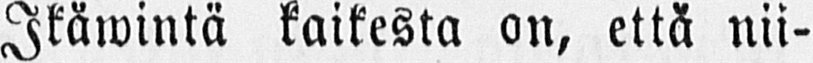Ikäwintä kaikesta on, että nii-
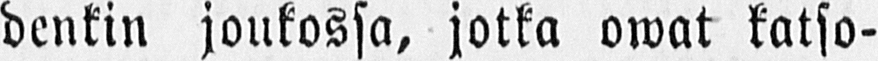denkin joukossa, jotka owat katso-
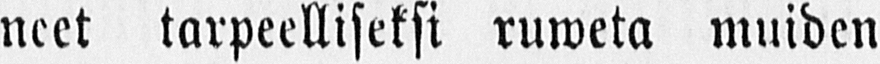neet tarpeelliseksi ruweta muiden
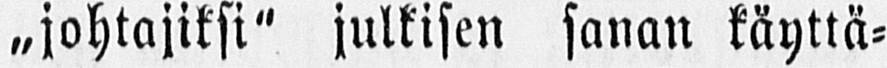˶johtajiksi" julkisen sanan käyttä-
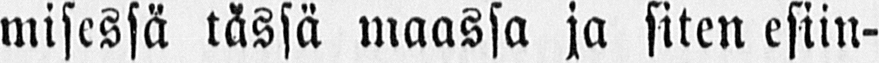misessä tässä maassa ja siten esiin-
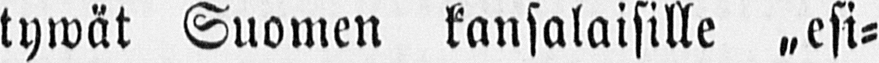tywät Suomen kansalaisille „esi-
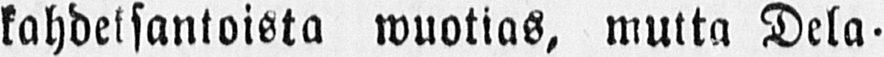kahdeksantoista wuotias, mutta Dela-
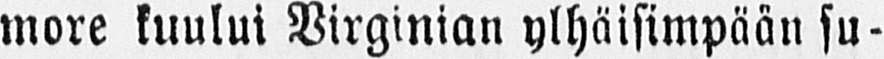more kuului Virginian ylhäisimpään su-
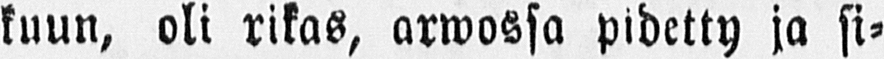kuun, oli rikas, arwossa pidetty ja si-
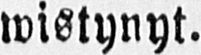wistynyt.
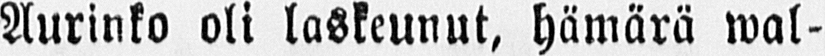Aurinko oli laskeunut, hämärä wal-
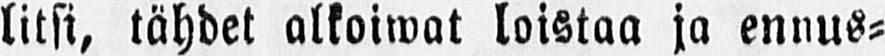litsi, tähdet alkoiwat loistaa ja ennus-
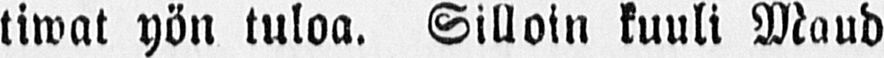tiwat yön tuloa. Silloin kuuli Maud
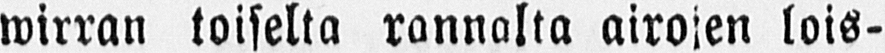wirran toiselta rannalta airojen lois-
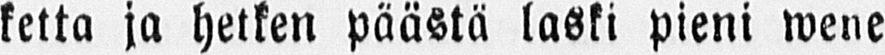ketta ja hetken päästä laski pieni wene
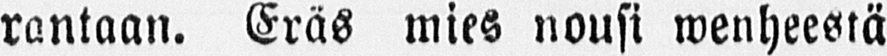rantaan. Eräs mies nousi wenheestä
